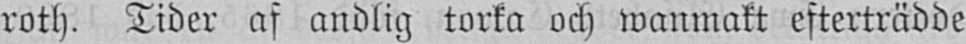roth. Tider af andlig torka och wanmakt efterträdde
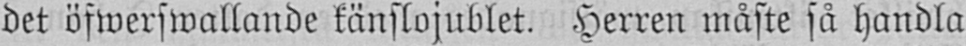det öfwerswallande känslojublet. Herren måste så handla
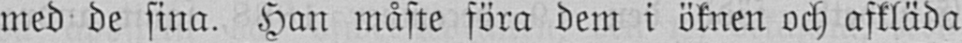med de sina. Han måste föra dem i öknen och afkläda
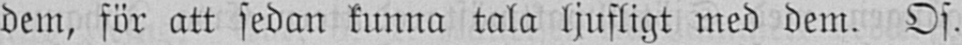dem, för att sedan kunna tala ljufligt med dem. Os.
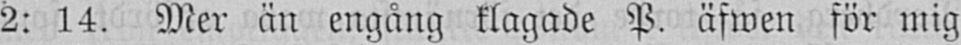2: 14. Mer än engång klagade P. äfwen för mig
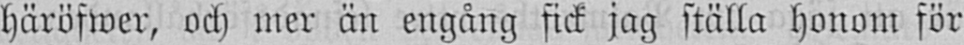häröfwer, och mer än engång fick jag ställa honom för
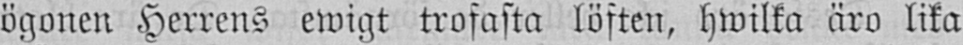ögonen Herrens ewigt trofasta löften, hwilka äro lika
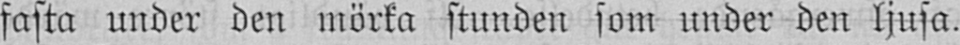fasta under den mörka stunden som under den ljusa.
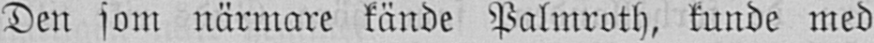Den som närmare kände Palmroth, kunde med
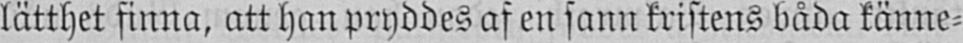lätthet finna, att han pryddes af en sann kristens båda känne-
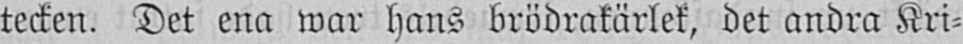tecken. Det ena war hans brödrakärlek, det andra Kri-
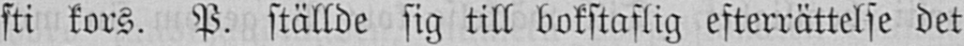sti kors. P. ställde sig till bokstaflig efterrättelse det
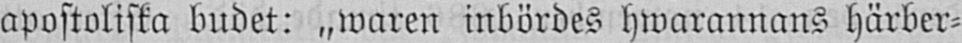apostoliska budet: „waren inbördes hwarannans härber-
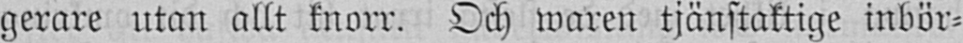gerare utan allt knorr. Och waren tjänstaktige inbör-
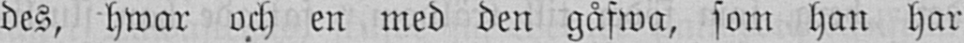des, hwar och en med den gåfwa, som han har
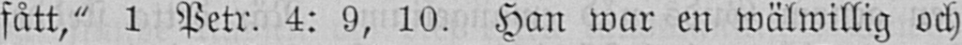fått," 1 Petr. 4: 9, 10. Han war en wälwillig och
